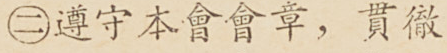㊁遵守本會會章，貫徹
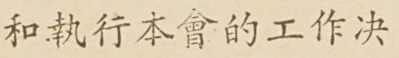和執行本會的工作決
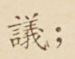議；
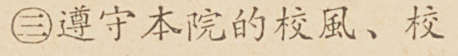㊂遵守本院的校風、校
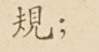規；
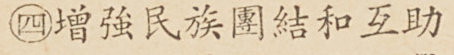㊃增強民族團結和互助
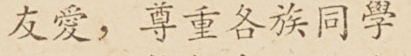友愛，尊重各族同學
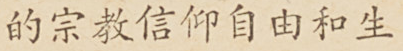的宗教信仰自由和生
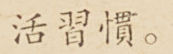活習慣。
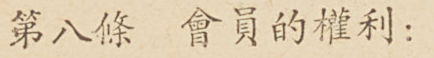第八條 會員的權利：
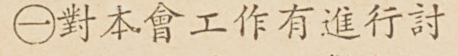㊀對本會工作有進行討
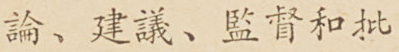論、建議、監督和批
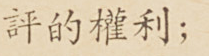評的權利；
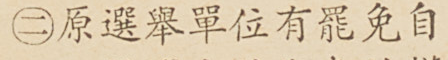㊁原選舉單位有罷免自
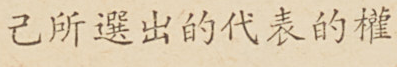己所選出的代表的權
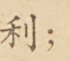利；
